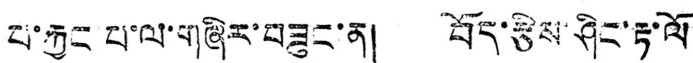པ་རྐྱང པ་ལ་གཞིར་བཟུང་ན། བོད་རྩིས་ཤིང་རྟ་ལོ
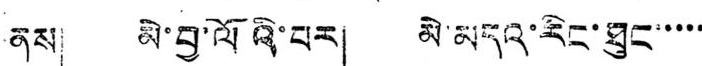ནས། མེ་བྱ་ལོའི་པར། མེ་མདའ་རིང་ཐུང་་་་་
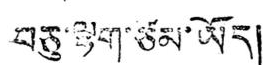བཅུ་ལྷག་ཙམ་ཡོད།
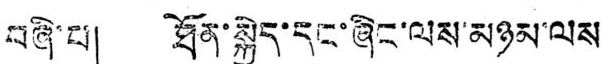བཞི་པ། ཐོན་སྐྱེད་དང་ཞིང་ལས་མཉམ་ལས
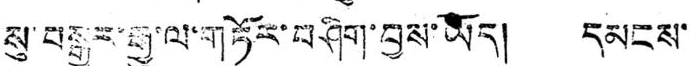སུ་བསྒྱུར་རྒྱུ་ལ་གཏོར་བཤིག་བྱས་ཡོད། དམངས་་
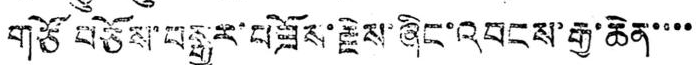གཙོ བཅོས་བསྒྱུར་བཟོས་རྗེས་ཞིང་འབངས་རྒྱ་ཆེན་་་་་
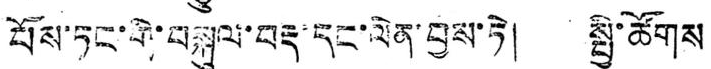པོས་ཏང་གི་བསྐུལ་བརྡ་དང་ལེན་བྱས་ཏེ། སྤྱི་ཚོགས
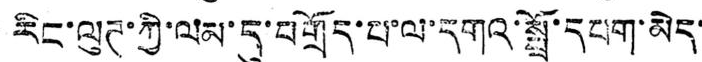རིང་ལུཊ་ཀྱི་ལམ་དུ་བགྲོད་པ་ལ་དགའ་སྤྲོ་དཔག་མེད་
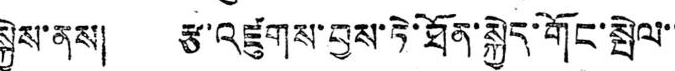སྐྱེས་ནས། རྩ་འཛུགས་བྱས་ཏེ་ཐོན་སྐྱེད་གོང་སྤེལ་་
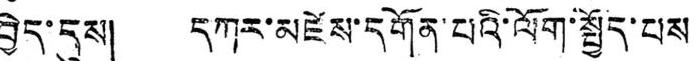བྱེད་དུས། དཀར་མཛེས་དགོན་པའི་ལོག་སྤྱོད་པས
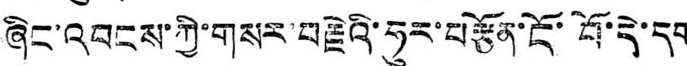ཞིང་འབངས་ཀྱི་གསར་བརྗེའི་ཧུར་བརྩོན་ངོ་བོ་དེ་དག
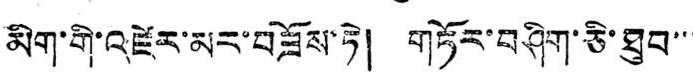མིག་གི་འཛེར་མར་བཟོས་ཏེ། གཏོར་བཤིག་ཅི་ཐུབ་་་
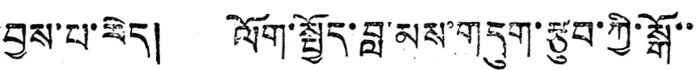བྱས་པ་རེད། ལོག་སྤྱོད་བླ་མས་གདུག་རྩུབ་ཀྱི་སྒོ་་
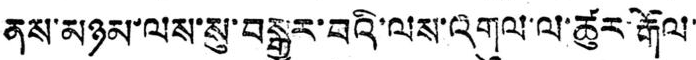ནས་མཉམ་ལས་སུ་བསྒྱུར་བའི་ལས་འགུལ་ལ་ཚུར་རྒོལ་
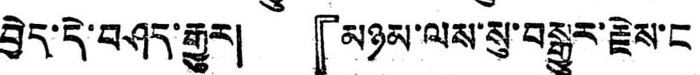བྱེད་དེ་བཤད་རྒྱུར། 『མཉམ་ལས་སུ་བསྒྱུར་རྗེས་ང
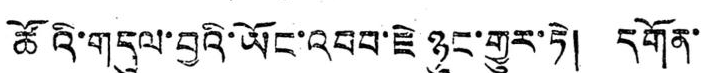ཚོའི་གདུལ་བྱའི་ཡོང་འབབ་ཇེ ཉུང་གྱུར་ཏེ། དགོན་
